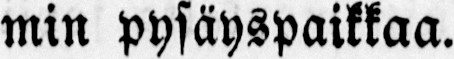min pysäyspaikkaa.
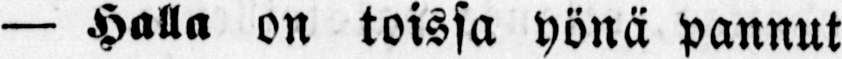— Halla on toissa yönä pannut
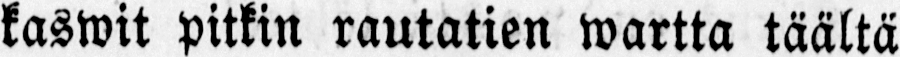kaswit pitkin rautatien wartta täältä
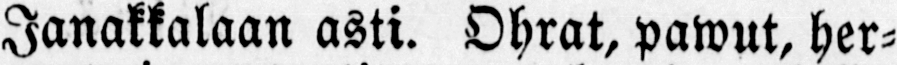Janakkalaan asti. Ohrat, pawut, her-
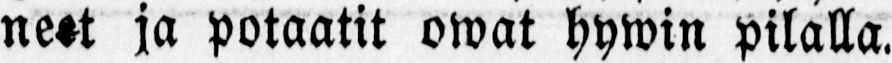neet ja potaatit owat hywin pilalla.
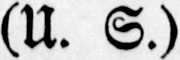(U. S.)
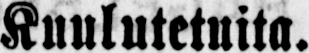Kuulutetuita.
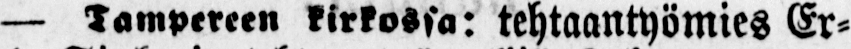— Tampereen kirkossa: tehtaantyömies Er-
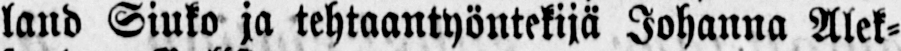land Siuko ja tehtaantyöntekijä Johanna Alek-
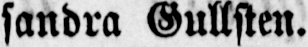sandra Gullsten.
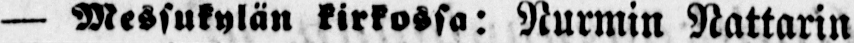— Messukylän kirkossa: Nurmin Nattarin
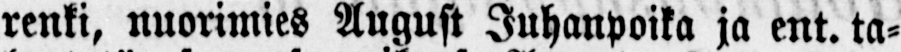renki, nuorimies August Juhanpoika ja ent. ta-
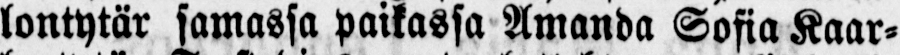lontytär samassa paikassa Amanda Sofia Kaar-
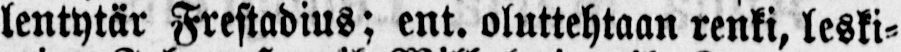lentytär Frestadius; ent. oluttehtaan renki, leski-
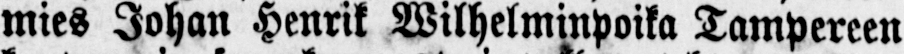mies Johan Henrik Wilhelminpoika Tampereen
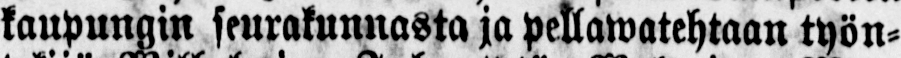kaupungin seurakunnasta ja pellawatehtaan työn-
